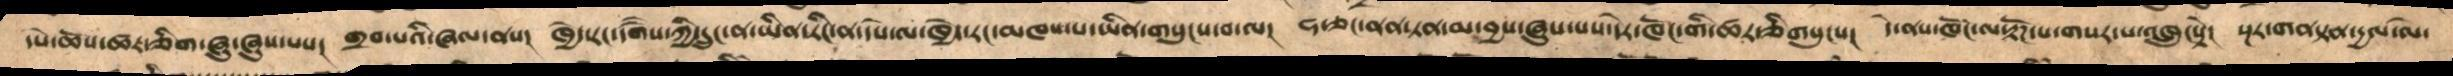དཔེ་ཆོས་ཚར་ཅིག་ཞུ་ཞུས་པས།  གྲབ་པའི་ཞལ་ནས།  ཁྱེད་རང་དགཻས་ཀྱི་དྲུང་ན་ཡིན་རིང་ན་དཔེ་ལ་ཁྱེད་རང་མཁས་པ་ཡིན་གསུངས་བ་ལ།  ཧ་ཅང་ནན་ཏན་མ་བྱས་ཞུས་པས་དེར་ཁོང་གི་ཚར་ཅིགསུངས།   དེ་ནས་ཁོང་ལ་རྟོཌ་པ་གསར་པ་འཁྲུངསྟེ།   སྔར་གནསྟན་དྱལ་ལེ་
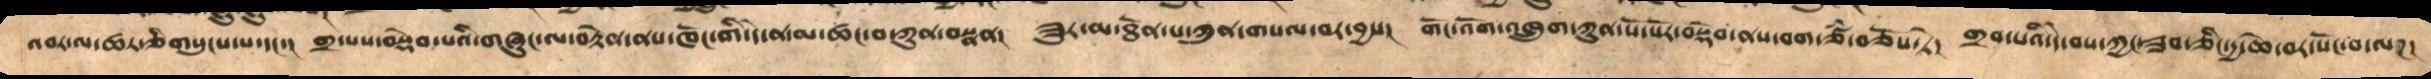འབར་ལ་ཚར་ཅིག་གསུངས་པ་དང་།  གྲ་པས་བསྡེབ་པའི་གཞུང་ལ་བརྟེན་ནས་ཁོང་གི་དེ་ན་མ་ཚང་བ་ཀུན་བསྣན།  ཟུར་མ་ཐོན་པ་ཀུན་གསལ་བར་བྱས།  གོང་འོག་འཁྲུག་ཀུན་སོ་སོར་བསྡེབ་ནས་བག་ཙཾ་བཅོས་ཏེ།  གྲབ་པའི་དེ་བས་ཀྱང་ཟབ་ཅིང་དྱ་ཆེ་བར་སོང་བ་ལཌ།
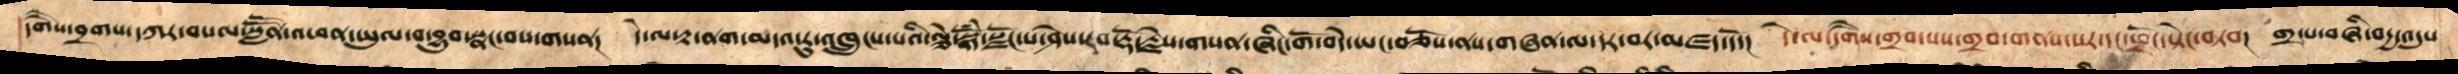དགཻས་བྲགས་དཀར་བསལ་སླཽན་འཕན་ཡུལ་བ་བྱུབ་སྣང་བས་གསན།   དེ་ལ་རྟ་ནག་མདའ་རུ་འཁྲུངས་པའི་ལྕེ་སྒོཾ་སྫོང་པ་ཤེས་རབ་རྡོ་རྗེས་གསན་ཞིང་གོ་བདེ་ཡང་བཅོས་ནས་གཞན་ལ་དར་བར་མཛད་དོ།   དེ་ལ་དགཻས་གྲབ་པས་གྲབ་གནས་སར་དང་ཕྲོང་སྟེང་བཏབ།  གྲ་པ་བཞི་བདྱ་་འདུས་
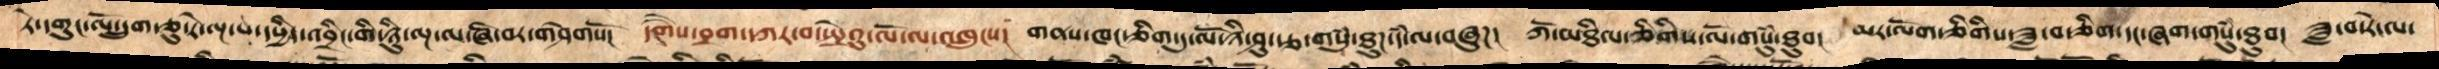ཏེ་དགུང་ལོ་དྲུག་ཅུ་རེ་ལྔ་པ་དཔྱིད་འབྲིང་གི་ཉིུ་ལྔ་ལ་ཞི་བར་གཤེགསོ།  དགཻས་བྲག་དཀར་བ་སྤྲེའུ་ལོ་ལ་འཁྲུངས།  གནས་ཁང་ཅིག་དུ་ལོ་ཉི་ཤུ་རྩ་གསུཾ་ཐུཌ་དཾ་ལ་བཞུཌ།  ཀོ་མཐིལ་ཅིགིས་ལོ་གསུཾ་ཐུབ།  མར་ལོག་ཅིགིས་ཟླ་བ་ཅིག་དང་ཞག་གསུཾ་ཐུབ།   ཟླ་བ་རེ་ལ་
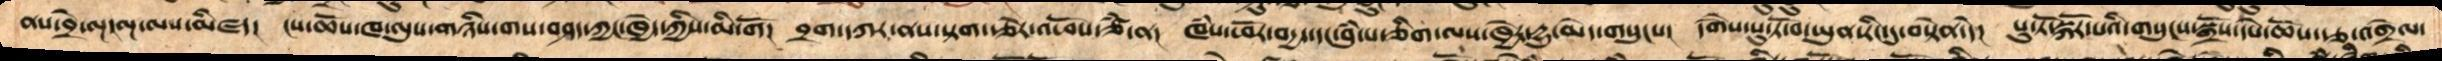ནས་བྲེ་ལྔ་ལྔ་ལས་མིཛད།  ངས་ཆོས་ཁ་ལུས་གཉིས་གས་བཤད་ཀྱང་ཁྱེད་ཀྱིས་མི་གོ།  བྲག་དཀར་ནས་སྟག་རྩེར་འཕོས་ཙཾ་ན།   ཁཾས་ཕོར་བདྱད་དང་བུཾ་པ་ཅིག་ལས་ཁྱེར་དྱུ་མེད་གསུངས།  དགཻས་སུ་ཏོ་བ་ཡུན་རིང་དུ་བསྟེན་དེ།   པུ་ཏོ་སྐོར་པའི་གསུངས་སྒྲོས་དཔེ་ཆོས་རྩ་འགྲེལ་
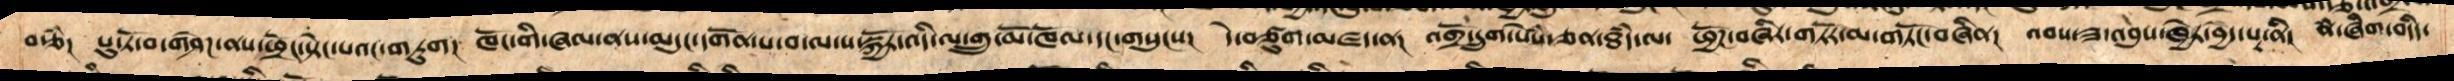བརྩཾ།  པུ་ཏོ་བ་གཤེཌ་ནས་ཕྲེང་སྟེང་པའང་གཏུག།  ཁོང་གི་ཞལ་ནས་མདུང་དགོན་པ་བ་ལ་ས་སྐྱོར་འདི་ལ་གྲུ་མོ་ཁོལ་དང་གསུངས།  དེ་བཙུག་མཛད་ན། འགྲོ་དྲུག་སེསཾ་ཅན་ཐཾད་ལ།  ཕྱོཌ་བཞིར་གཏོར་མ་གཏོང་བཞིན། འབས་ཟ་འབུས་ཁྱེར་བྱེད་པར་ནི།  ནཾ་ཞིག་བདིད་
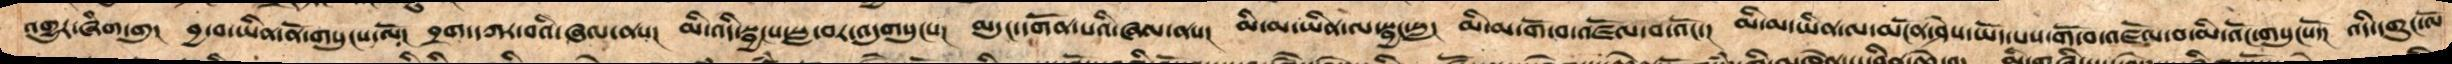འགྱུར་ཞིག་དགུ།  བྱ་བ་ཡིན་ནོ་གསུངས་ལོ།  བྲག་དཀར་བའི་ཞལ་ནས། མི་འདི་སྦྱངས་སླ་བར་གདུགསུངས། མདུང་དགོན་པའི་ཞལ་ནས། མི་མ་ཡིན་ལ་སྦྱང་སླ། མི་མ་གོ་བ་འཛོལ་བ་འོང་། མི་མ་ཡིན་ལ་མངོན་ཤེས་ཡོད་པས་གོ་བ་འཛོལ་བ་མི་འོང་གསུངསོ་། འདི་དགུང་ལོ་
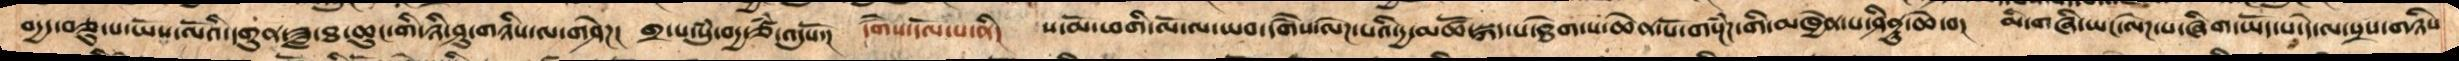བདྱད་བཅུ་པ་ཡོས་ལོའི་དགུན་ཟླ་ཐ་ཆུང་གི་ཉི་ཤུ་གཉིས་ལ་གཤེཌ། གྲ་པ་སུཾ་བདྱ་ཙཾ་འདུསོ། དགཻས་དོལ་པ་ནི། ས་མོ་ཕགི་ལོ་ལ་ཡབ་དགཻས་ལེཌ་པའི་དྱ་མཚོ་སྐད་པ་ཐེག་པ་ཆེན་པོ་གསྔཾཌ་གི་མཁྱེན་པ་ཤིནྟུ་ཆེ་བ། མི་གཞི་ཡང་ལེཌ་པ་ཞིག་ཡོད་པ་དེ་ལ་སྲས་གཉིས
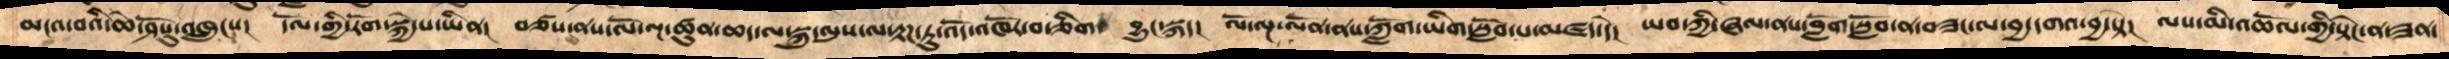མངའ་བའི་ཆེ་ཤོསུ་འཁྲུངས།  དོལ་གྱི་རོག་སྐྱེ་པ་ཡིན།  བཙས་ནས་ལོ་ལྔ་ཕན་ཚུན་ཆད་ལ་སྐུ་ལུས་ལ་རྟཌ་ཏུ་འོད་འཁོར་བ་ཅིག་ བྱུང་སྐད།  ལོ་ལྔ་ལོན་ནས་ཀློག་ཡིག་སློབ་པར་མཛད་དེ།  ཡབ་ཀྱི་ཞལ་ནས་ཀློག་སློབ་ན་བཟང་ལ་བྱ་དགའ་བྱ་སྟེ། ལས་མི་འཆོལ་གྱི་སྟེང་ན་ཟན་
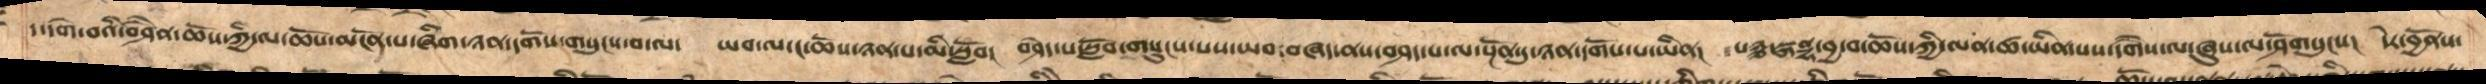ད་དགེ་བའི་བཤཻན་ཆོས་ཀྱི་ལ་ཆོས་མངོན་པ་ཞིག་ཉན་དགོས་གསུངས་པ་ལ་  ཡབ་ལ་ང་ཆོས་ཉན་པ་མི་སློབ།  བཤེད་པ་སློབ་གསུངས་པས་ཡབ་བཞད་ནས་བཤད་པ་ལ་སྔོན་དུ་ཉན་དགོས་པ་ཡིན།  པཉྩ་སྐནྡྷ་བྱ་བ་ཆོས་ཀྱི་ལན་ཚ་ཡིན་པས་དགཻས་ལ་ཞུས་ལ་ཤོག་གསུངས། དེར་བྱོནས་
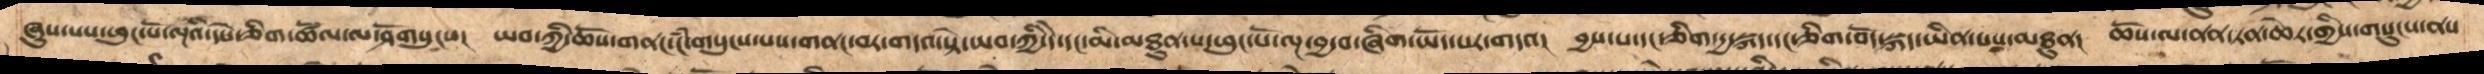ཞུས་པས་ཕུང་པོ་ལྔའི་དཔེ་ཅིག་ཚོལ་ལ་ཤོགསུངས།  ཡབ་ཀྱི་ཆོས་གནང་ངཾ་གསུངས་པས་གནང་བར་གདའ་སྟེ་ཡབ་ཀྱི་དེ་དང་མི་མཐུན་པ་ཕུང་པོ་ལྔ་བྱ་བ་ཞིག་ཡོད་པར་གདའ།  བྱས་པ་དང་ཅིག་དྱ་སྐད་དང་ཅིག་བོད་སྐད་ཡིན་པས་མཐུན།  ཆོས་ལ་ནན་ཏན་ཆེར་གྱིས་གསུངས་ནས
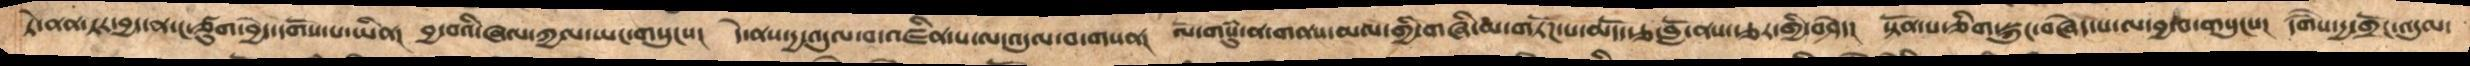ཏེ་ནན་ཏར་བྱད་ན་ང་ཙུག་བྱེད་དགོས་པ་ཡིན།  བྱ་བའི་ཞལ་ཀྱལ་ཡང་གསུངས།  དེ་ནས་དྱ་འདུལ་བ་འཛིན་པ་ལ་འདུལ་བ་གསན།  ལོ་གསུཾ་ན་གནས་མལ་གྱི་གཞི་མ་གཏོཌ་པ་མདོ་རྩ་བློ་ནས་རྩར་གྱི་བཤེད།  སྟོན་པ་ཅིག་སྐུང་བཞེད་པ་ལ་བྱ་བ་གསུངས།  དགཻས་དྱ་གྲོང་འདུལ་
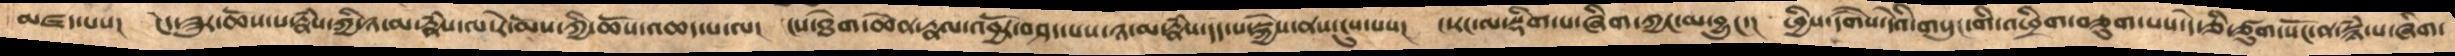མཛད་པས།  ངེད་ཟུར་ཆོས་པ་རྣཾས་ཀྱི་ཉ་མ་རྣཾས་ལ་རེ་མོས་ཀྱི་ཆོས་འཆད་པ་ལ།   ངས་ཐེག་ཆེན་རྣལ་འབྱོར་བཤད་པས་ཉ་མ་རྣཾས་དད་པ་སྐྱེས་ནས་ངུས་པས།  ང་རང་ལ་སྡིག་པ་ཞིག་ཀྱང་མ་བྱུང་།  ཕྱིས་དགཻས་དེའི་གསུང་གི་འཕྲིག་བཅུག་པས་དེ་ཅི་ཙུག་སོང་ན་སྙཾ་པ་ཞིག་
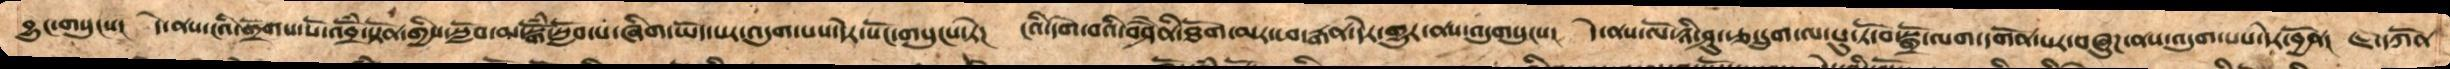བྱུང་གསུངས།  དེ་ནས་ངའི་གྲོགས་པོ་འབྲོཾ་སྟོན་གྱིས་སློབ་མ་སྒོཾ་སློབ་པ་ཞིག་ཡོད་པར་འདུག་པས་དེར་སོང་གསུངས་ཏེ།  ངའི་དགེ་བའི་བཤཻནི་ཐོག་མར་ཕ་རྒན་དེར་གྱུར་ནས་འདུགསུངས།  དེ་ནས་ལོ་ཉི་ཤུ་རྩ་དྲུག་ལ་པུ་ཏོ་བ་སྒྲོ་ལག་དགོན་པར་བཞུཌ་ནས་འདུག་པས་དེར་བྱོན།  ཇ་དཀོན
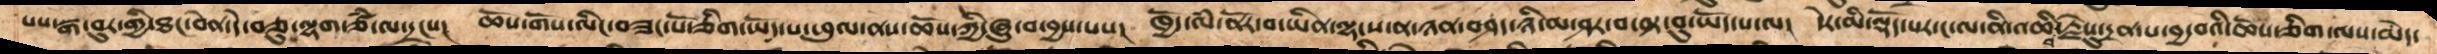པས་སྒ་བུར་གྱི་ཐང་བེན་དེ་བཅུ་ལྷག་ཙཾ་ལ་དྲངས།  ཆོས་གོས་ལིང་བཟང་པོ་ཅིག་ཡོད་པ་ཕུལ་ནས་ཆོས་ཀྱི་ཞུ་བ་བྱས་པས།   ཁྱོད་ལཾ་ནོར་བ་ཡིན་ལྷ་ས་ན་ཉན་བཤད་ཉི་མ་ཤར་བ་ལྟ་བུ་ཡོད་པ་ལ།  དེར་མི་ལྡོད་པར་ང་ལ་ནི་འཆི་བ་རྗེསུ་དྲན་པ་བྱ་བའི་ཆོས་ཅིག་ལས་མེད་
